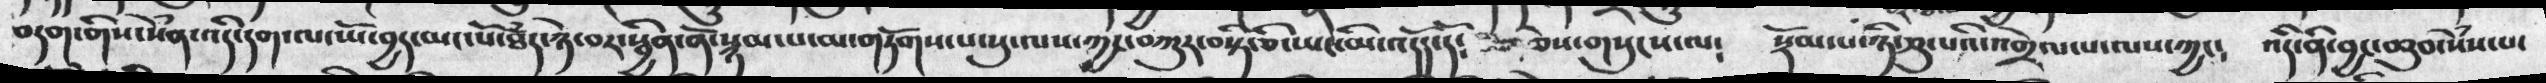བདག་གིས་སེཾན་འདི་དག་ལ་ཡོ་བྱད་མང་པོ་ཐཾད་ཉེ་བར་སྦྱིན་ནོ་སྙམ་པ་མ་གཏོགས་པ་སུ་ལས་ཀྱང་བཀུར་བསྟི་ཅི་ཡང་མི་འདོད་དོ་   ཅེས་གསུངས་ལ༴  སྡོམ་པ་ཉི་ཤུ་པའི་འགྲེལ་པ་ལས་ཀྱད༴   འདི་ནི་བྱང་ཆུབ་སེཾས་པ་
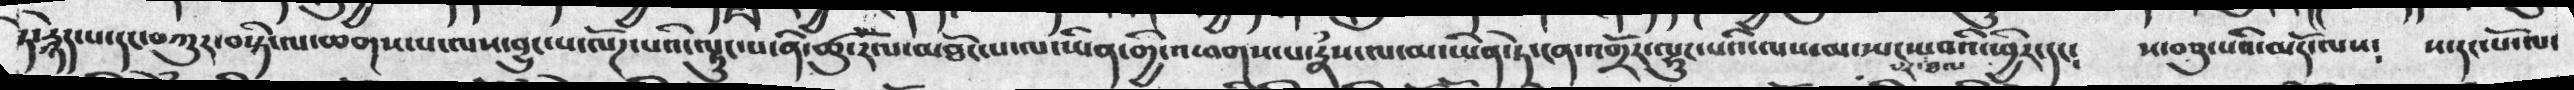ཏེ་རྙེད་པ་དང་བཀུར་བསྟི་ལ་ཆགས་པ་ལས་བྱུང་པ་ལོཌ་པའི་ལྟུང་པ་ནི་ཚུ་རོལ་མཐོང་པ་ལ་ཡིན་གྱི་འཕགས་པ་རྣཾས་ལ་མ་ཡིན་ཏེ་ངན་འགྲོར་ལྷུང་པའི་ལས་མ་སྤང་པར་ཐལ་བའི་ཕྱིར་དང༴  ས་བཅུ་པའི་མདོ་ལས༴  ས་དང་པོ་ལ་
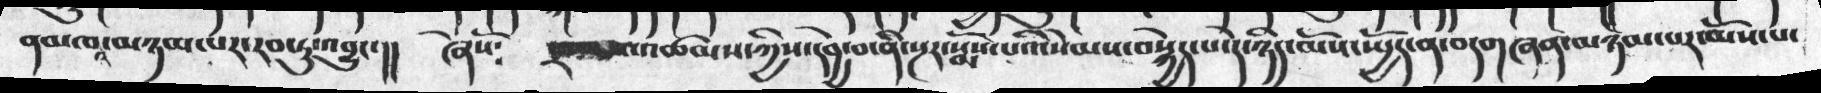ནམཁའ་མཉམ་པར་རབ་ཏུ་འབྱུང་།།  ཞེསོ༴  ༣་པ་འཚམས་ཀྱིས་དབྱེ་བ་ནི་སྔར་སྨོས་པའི་སེམས་བསྐྱེད་པ་དེ་ཉིད་མོས་ཡྱོད་ན་བདགཞན་མཉམ་པར་མོས་པ་
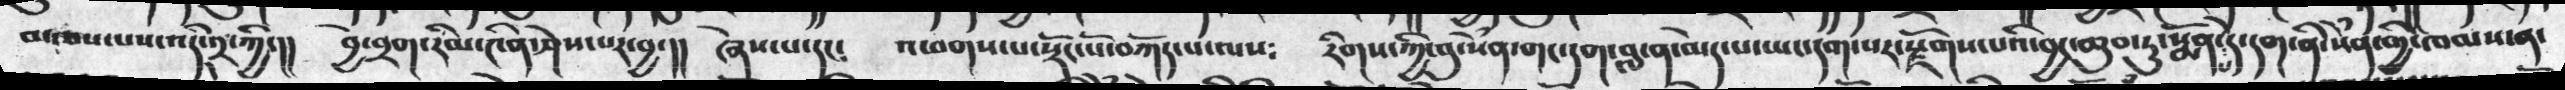མཁས་པས་འདི་༢་ཀྱི་།།   བྱ་བྲག་རིམ་༤ིན་ཤེས་པར་བྱ་།།  ཞེས་པ་དང༴  འཕགས་པ་སྡོང་པོ་བཀོད་པ་ལས༴    རིགས་ཀྱི་བུ་སེཾན་གང་དག་བླ་ན་མེད་པས་ཡང་དག་པར་སྫོགས་པའི་བྱང་ཆུབ་ཏུ་སྨོན་པ་དེ་དག་ནི་སེཾན་གྱི་ཁམས་ན་
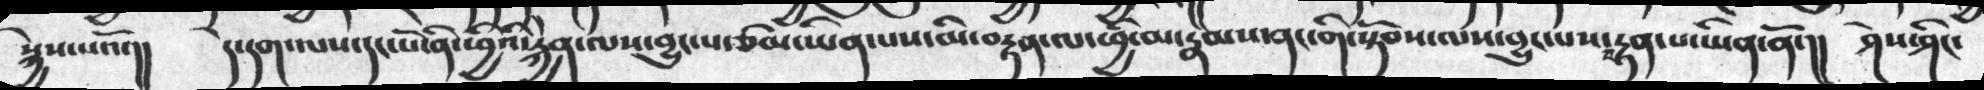སྐྱེས་པའོ་།།   དེ་དག་ལས་དང་པོ་ནི་ཕྱིའི་རྐྱེན་ལས་བྱུང་པ་ཙམ་ཡིན་པས་མི་བརྟན་ལ་ཕྱི་མ་རྣམས་ནང་གི་སྟོབས་ལས་བྱུང་པས་བརྟན་པ་ཡིན་ནོ་།།  ཤེས་ཤིང་
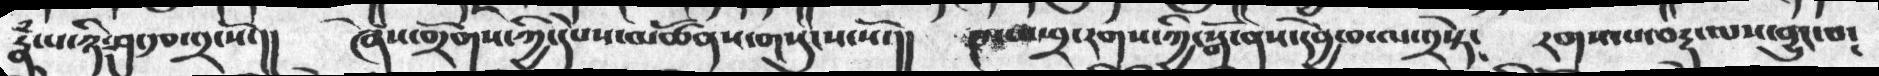རྣཾ་པ་ཉི་ཤུ་རྩ་༢་སོ་།།   ཞེས་གྲོགས་ཀྱི་དཔེས་མཚོནས་གསུངས་སོ་།།    ༤་པ་ཕྲ་རགས་ཀྱི་སྒོ་ནས་དབྱེ་བ་ལ་༢སྟེ༴   རགས་པ་བརྡ་ལས་བྱུང་བ༴
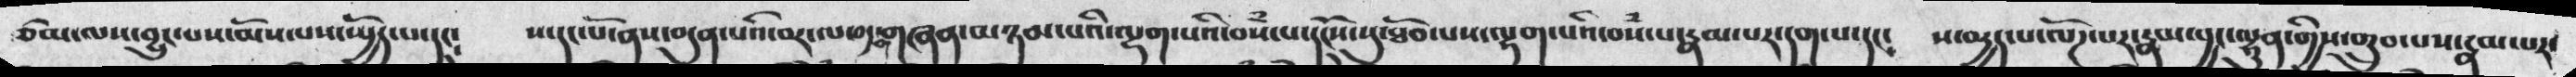ཙམ་ལས་བྱུང་པས་མོས་པས་སྤྱོད་པ་དང༴  ས་དང་པོ་ནས་བདུན་པའི་བར་ལ་བདག་གཞན་མཉམ་པའི་ལྷག་པའི་བསཾ་པ་དངོས་སུ་ཐོབ་པས་ལྷག་པའི་བསཾ་པ་རྣམ་པར་དག་པ་དང༴   ས་བདྱད་པ་ལོཌ་པར་རྣམ་བྱང་ལྷུན་གྱིས་གྲུབ་པས་རྣམ་པར་
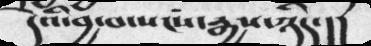དེའི་བྱ་བ་སངས་རྒྱས་ཉིད་།།
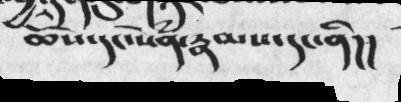ཆོས་དང་སེཾན་རྣམས་དང་ནི།།
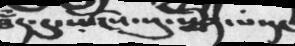ཐོཾད་དུ་ཡོངས་སུ་སྨིན་པཾ་དང
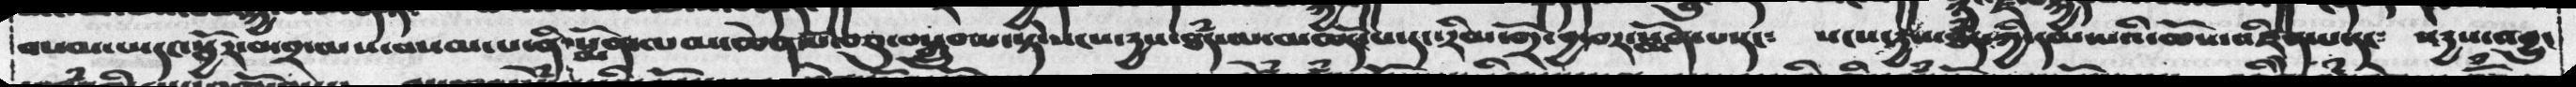བསམ་པ་དང་སྦྱོར་བ་༢་ལས་བསམ་པ་ནི་སྨོན་ལམ་ཆེན་པོ་བཅུ་བསྒྲུབ་པ་སྟེ་སངས་དྱས་ཐྃད་ལ་མཆོད་པ་དང་རིམ་གྲོ་བྱ་བར་སྨོན་པ་དང༴   སངས་དྱས་ཐྃད་ཀྱི་དམ་པའི་ཆོས་འཛིན་པ་དང༴  སངས་འབྱུང
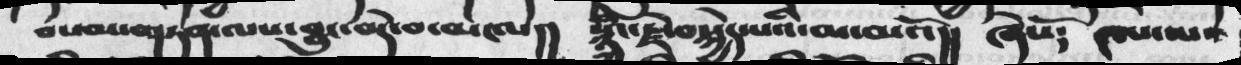བསམ་གཏན་ལས་བྱུང་བདེ་བ་མངལ།།  སྙིང་རྗེ་བསྐྱེད་པའི་མ་མའོ།།  ཞེསོ༴   ༤་པ་ཡང་
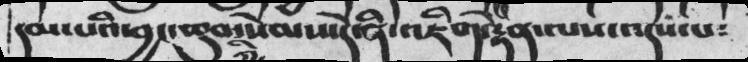དམ་པའི་བྱང་ཆུབ་ཀྱི་སེམས་དེ་ནི་འཇིག་རྟེན་ལས་འདས་པ༴
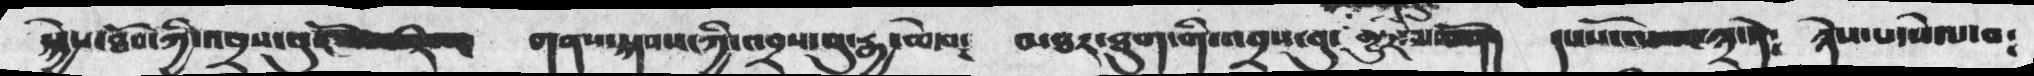སྐྱེས་ཐོབ་ཀྱི་འབྲས་བུ་ངོ་མཚར་ཡང་  གནས་སྐབས་ཀྱི་འབྲས་བུ་རྒྱ་ཆེ་བར་  མཐར་ཐུག་གི་འབྲས་བུ་གྱུར་མཆོག།    དང་པོ་ལ་ཡང་༣་སྟེ༴  ཉེས་པ་སེལ་བ༴
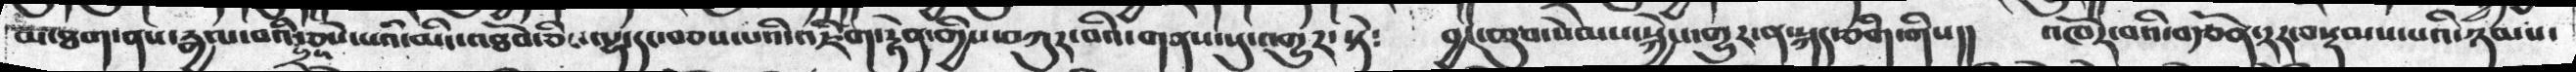མ་ཐག་ནས་རྒྱལ་བའི་སྲས་ཅེས་པའི་མིང་འཐོབ་ཅིང་ལྷ་དང་བཅས་པའི་འཇིག་རྟེན་གྱིས་བཀུར་བའི་གནས་སུ་འགྱུར་སྟེ༴  བྱང་ཆུབ་སེམས་སྐྱེ་འགྱུར་ན་སྐད་ཅིག་གིས།།  འཁོར་བའི་བརྩོན་རར་བསྡམས་པའི་ཉམས་
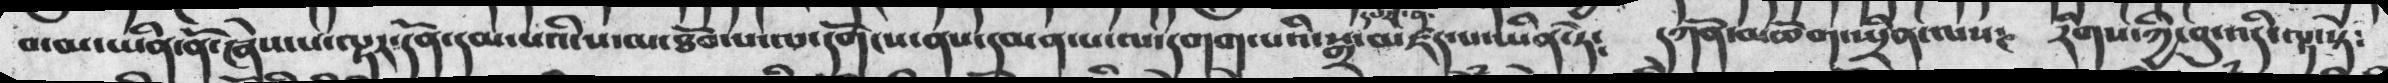བ་མ་ཡིན་ནོ་ཞེས་པ་ལྟར་དོན་དམ་པའི་ས་ལ་ཐོབ་པ་ལ་དགོངས་ནས་དམན་པ་ལ་དགག་པའི་སྒྲ་མཛད་པ་ཡིན་ཏེ༴ དཀོན་མཆོག་སྤྲིན་ལས༴  རིགས་ཀྱི་བུ་འདི་ལྟ་སྟེ༴
